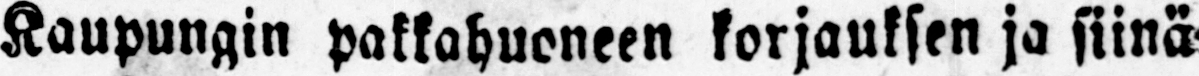Kaupungin pakkahuoneen korjauksen ja siinä
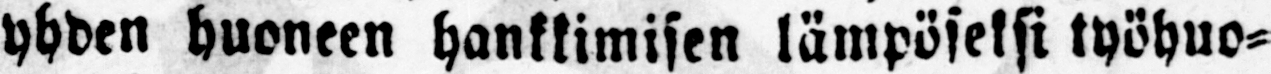yhden huoneen hankkimisen lämpöseksi työhuo-
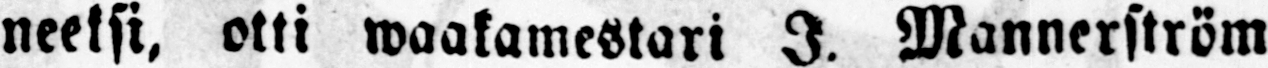neeksi, otti waakamestari I. Mannerström
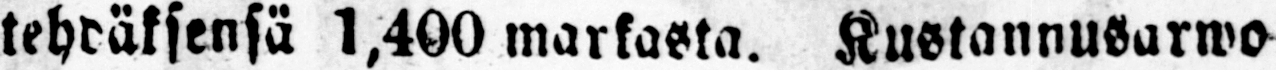tehdäksensä 1,400 markasta. Kustannusarwo
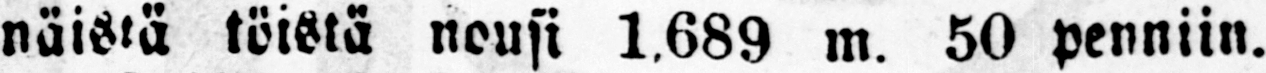näistä töistä nousi 1,689 m. 50 penniin.
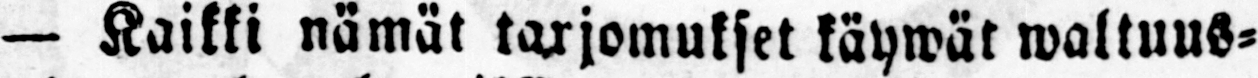— Kaikki nämät tarjomukset käywät waltuus-
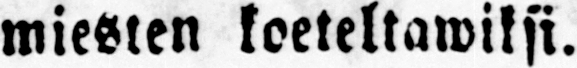miesten koeteltawiksi.
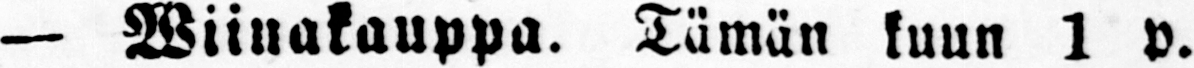— Wiinakauppa. Tämän kuun 1 p.
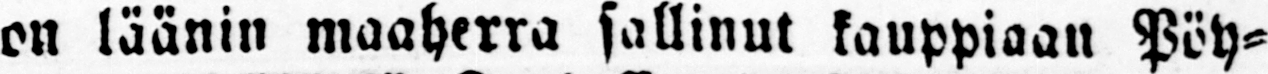on läänin maaherra sallinut kauppiaan Pöy-
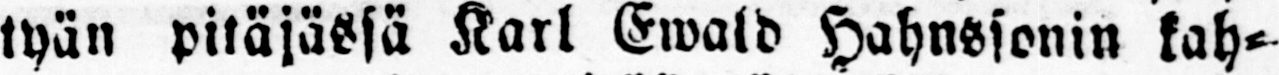tyän pitäjässä Karl Ewald Hahnssonin kah-
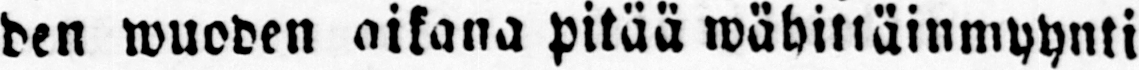den wuoden aikana pitää wäkittäinmyynti wii-
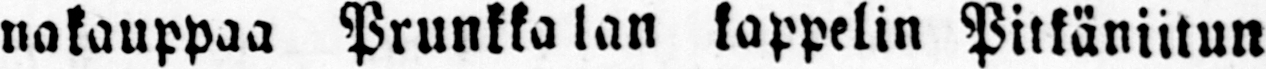nakauppaa Prunkkalan kappelin Pitkäniitun
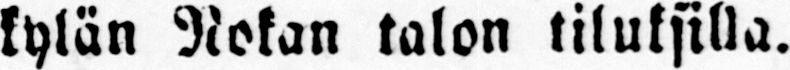kylän Nokan talon tiluksilla.
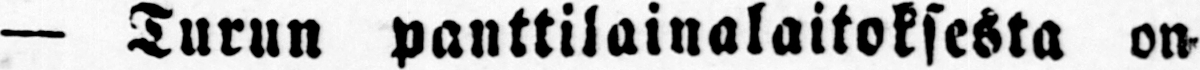— Turun panttilainalaitoksesta on
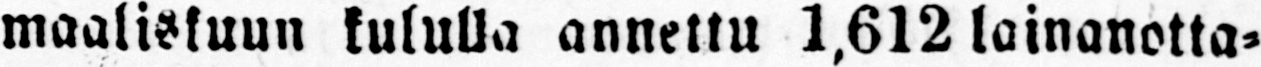maaliskuun kululla annettu 1,612 lainanotta-
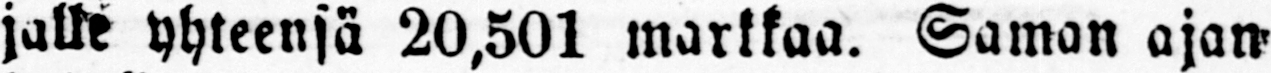jalle yhteensä 20,501 markkaa. Saman ajan
